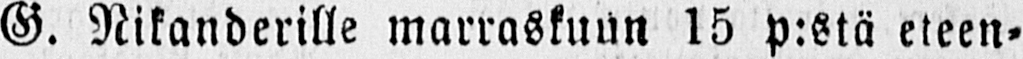G. Nikanderille marraskuun 15 p:stä eteen-
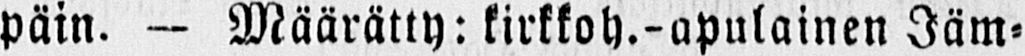päin. — Määrätty: kirkkoh.-apulainen Jäm-
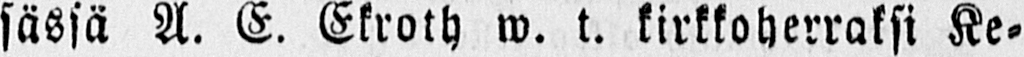sässä A. E. Ekroth w. t. kirkkoherraksi Ke-
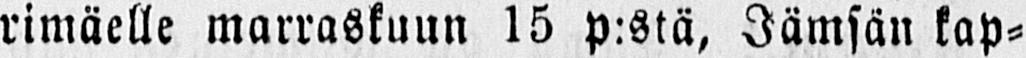rimäelle marraskuun 15 p:stä, Jämsän kap-
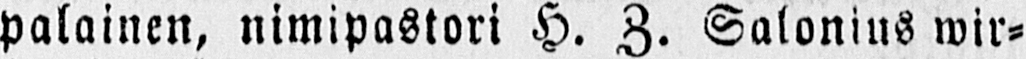palainen, nimipastori H. Z. Salonius wir-
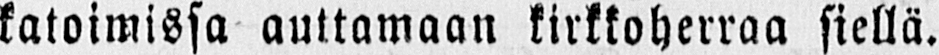katoimissa auttamaan kirkkoherraa siellä.
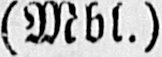(Mbl.)
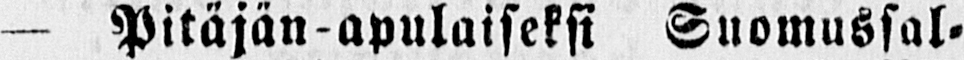— Pitäjän-apulaiseksi Suomussal-
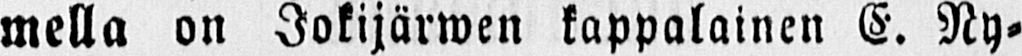mella on Jokijärwen kappalainen E. Ny-
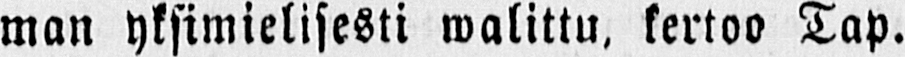man yksimielisesti walittu, kertoo Tap.
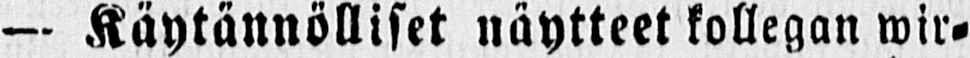— Käytännölliset näytteet kollegan wir-
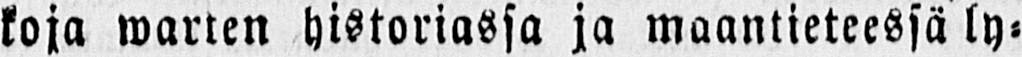koja warten historiassa ja maantieteessä ly-
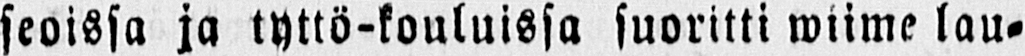seoissa ja tyttö-kouluissa suoritti wiime lau-
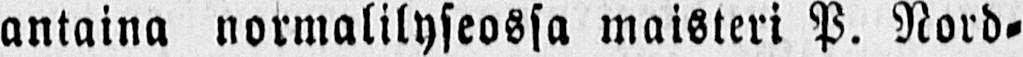antaina normalilyseossa maisteri P. Nord-
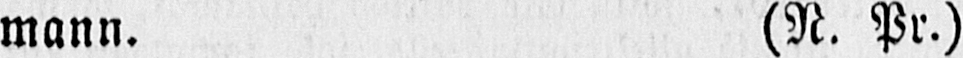mann. (N. Pr.)
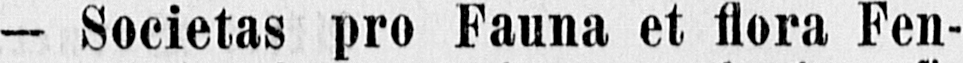— Societas pro Fauna et flora Fen-
